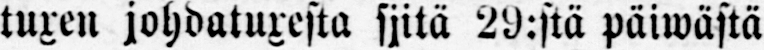tuxen johdatuxesta siitä 29:stä päiwästä
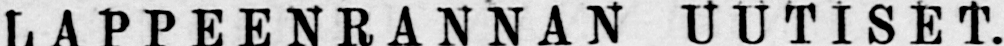LAPPEENRANNAN UUTISET.
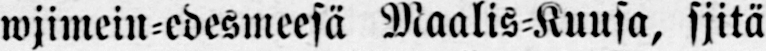wjimein-edesmeesä Maalis-Kuusa, sjitä
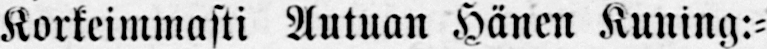Korkeimmasti Autuan Hänen Kuning:-
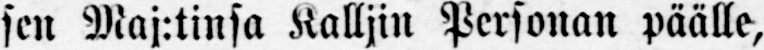sen Maj:tinsa Kalljin Personan päälle,
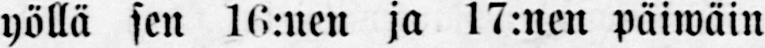yöllä sen 16:nen ja 17:nen päiwäin
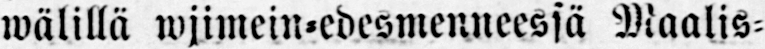wälillä wjimein-edesmenneessä Maalis-
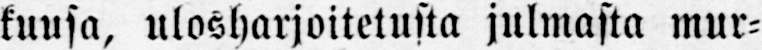kuusa, ulosharjoitetusta julmasta mur-
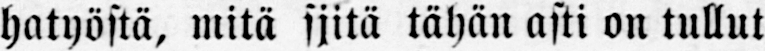hatyöstä, mitä sjitä tähän asti on tullut
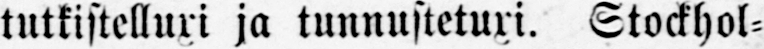tutkistelluxi ja tunnustetuxi. Stockhol-
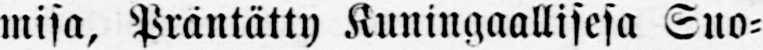misa. Präntätty Kuningaallisesa Suo-
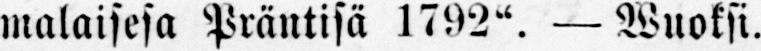malaisesa Präntisä 1792". — Wuoksi.
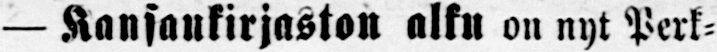— Kansankirjaston alku on nyt Perk-
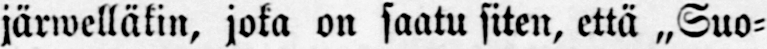järwelläkin, joka on saatu siten, että „Suo-
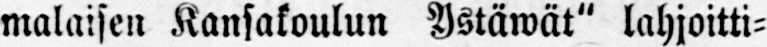malaisen Kansakoulun Ystäwät" lahjoitti-
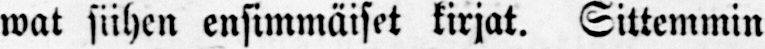wat siihen ensimmäiset kirjat. Sittemmin
